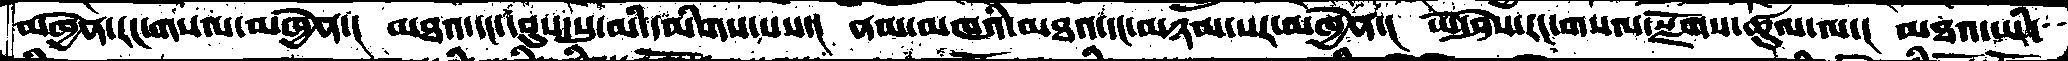མཁྱེན་རང་གསལ་མཁྱེན་།  མཐའ་དང་དབུས་སུ་མི་དམིགས་པས་།  ནམ་མཁའི་མཐའ་དང་མཉམ་པར་མཁྱེན་།  ཡེ་ཤེས་རང་གསལ་སྫོགས་ཚུལ་ལ་།  མཐའ་ཡི་
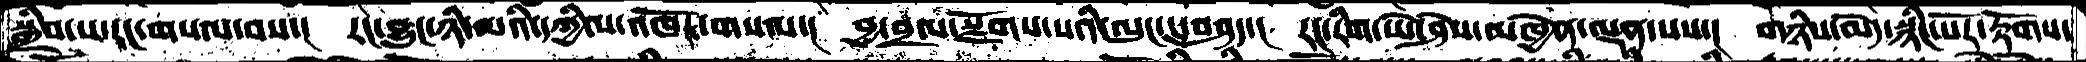སྒྲིབ་པ་རང་གསལ་བས་།  རང་བྱུང་ཉི་མའི་དཀྱིལ་འཁོར་གསལ་།  བྱ་བྲལ་སྫོགས་པའི་ལུང་དུ་བཤད་།  རང་རིག་ཡེ་ཤེས་མཁྱེན་ལྡན་པས་།  གཉིས་མེད་སྙིང་པར་རྟོགས་
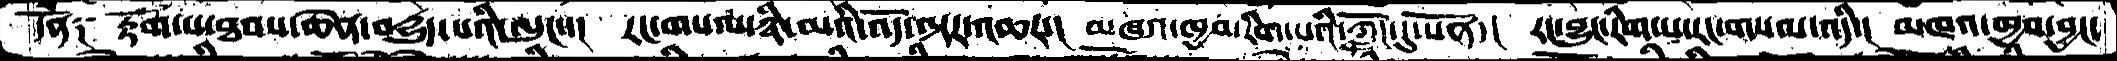དོན༑  རྟོག་པ་ཐབས་ཆེན་བདྱུད་པའི་ལུང་་།  རང་གསལ་ཉི་མའི་འོད་ལྟར་འཆར་།  མཁའ་ཁྱབ་རིག་པའི་ཀློང་དུ་སོན་།  རང་བྱུང་རིག་པ་རང་གསལ་འདི་།  མཁའ་ཁྱབ་བྱང་
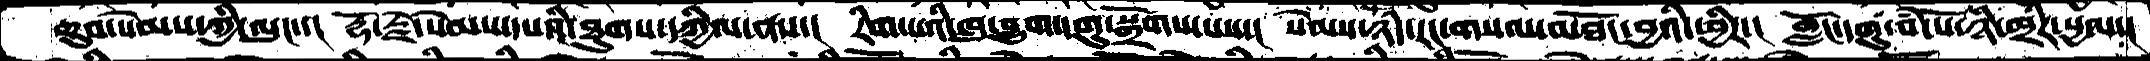ཆུབ་སེམས་ཀྱི་ལུང་་།  རྡོ་རྗེ་སེམས་དཔའི་ཐུགས་དཀྱིལ་ནས་།  རིག་པའི་ཁུ་བྱུག་དགུ་སྒྲོགས་པས་།  སེམས་ཉིད་རང་གསལ་མཐོང་བྱའི་ཕྱིར་།  གློང་དགུ་བཾ་སོ་ཉི་ཁྲིར་སྱལ་།
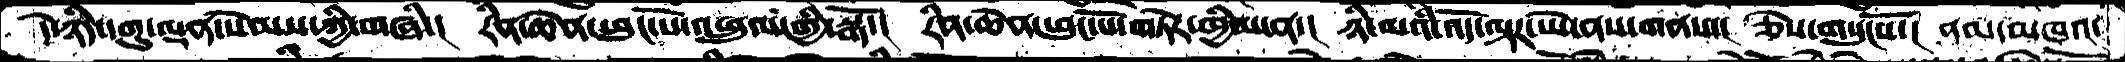དེ་ཉིད་དགུ་ལྡན་སེམས་ཀྱི་གཞི་།  རིན་ཆེན་ཕུང་པོ་འཕྲུལ་གྱི་སྒོ་།  རིན་ཆེན་ཕུང་པོ་གཏོར་ཁྱིམ་ན་།  ཉི་མའི་འོད་ལྟར་ཡེ་ནས་གནས་།  ཅེས་གསུངསོ་།  ནམ་མཁའ་
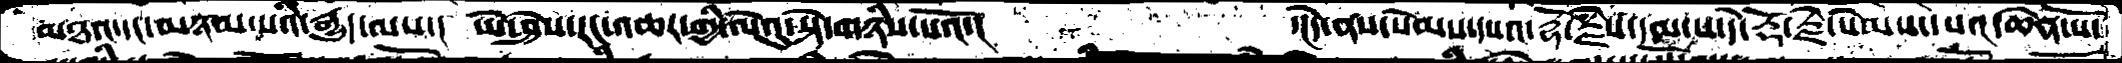མཐའ་དང་མཉམ་པའི་རྒྱུད་ལས་།  ཡེ་ཤེས་རང་འཆར་གྱི་ལེའུ་སྟེ་གཉིས་པའོ་།         ་།དེ་ནས་སེམས་དཔའ་རྡོ་རྗེས་དམ་པ་དེ་རྡོ་རྗེ་སེམས་དཔའ་ཆེན་པོ་
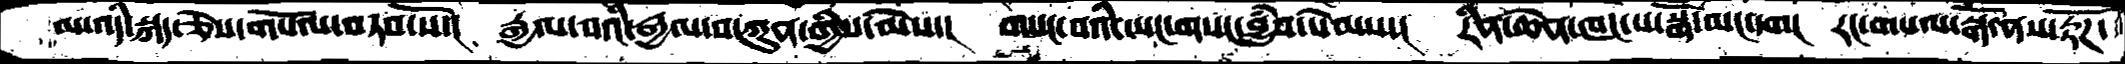མ་འདི་སྐད་ཅེས་གསོལ་བཏབ་སོ་།  རྒྱལ་བའི་རྒྱལ་བ་ཀུན་གྱིས་མེས་།  གསང་བའི་ཡང་གསང་བྱུཾབ་སེམས་།  རིན་ཆེན་ཁང་པ་སྒོ་མང་དག།  རང་གསལ་སྒོ་ནས་རྟོཌ་
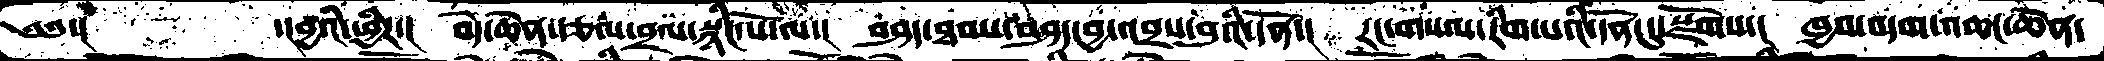༄༅་།        ་།བྱའི་ཕྱིར་།  བདེ་ཆེན་རྩལ་བྲལ་སྙིང་པོ་ལ་།  བཤད་ཐབས་བཤད་བྱ་འབྲས་བུའི་དོན་།  རངགསལ་རིག་པའི་དོན་དུ་སྫོགས་།  ཁྱབ་བདག་འཆང་ཆེན་
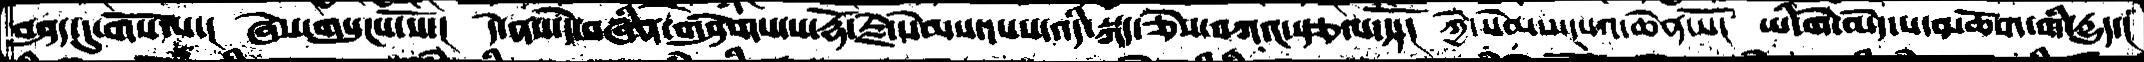བཤད་དུ་གསོལ་།  ཞེས་གསུངས་སོ་།  དེ་ནས་དེ་བཞིན་གཤེགས་པས་རྡོ་རྗེ་སེམས་དཔས་འདི་སྐད་ཅེས་བཀའ་སྩལ་ཏོ་།  ཀྱེ་སེམས་དཔའ་ཆེན་པོ།།  ཡི་གེ་མེད་པ་མཆོག་གི་དྱུད་
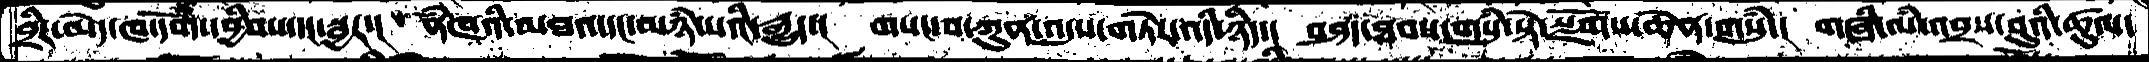བྲིར་མེད་ཁ་དོག་དབྱིབས་དང་སྦྱར་།  ནཾཁའི་མཐའ་དང་མཉཾ་པའི་རྒྱུད་།  གསང་བ་ཀུན་འདུས་གཏེར་འདི་ཉིད་།  བཤད་ཐབས་གསུཾ་སྟེ་སྫོགས་ཆེན་གསུཾ་།  གཞི་ལཾ་འབྲས་བུའི་ཚུལ་
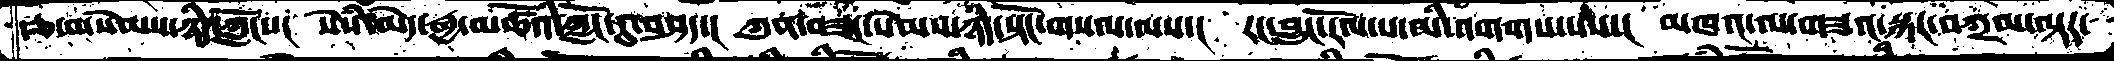རྩ་བ་སེམས་ཉདི་ཀློང་་།  སེསཾ་མེད་རྒྱ་མཚོའི་ཀློང་དུ་བཤད་།  ཀུན་བཟང་སེམས་ཉིད་སྟོང་གསལ་ལས་།  རང་བྱུང་རོལ་པ་མི་འགགས་པས་།  མཁའ་ལ་གཟའ་སྐར་བཀྲམ་ལྟར་
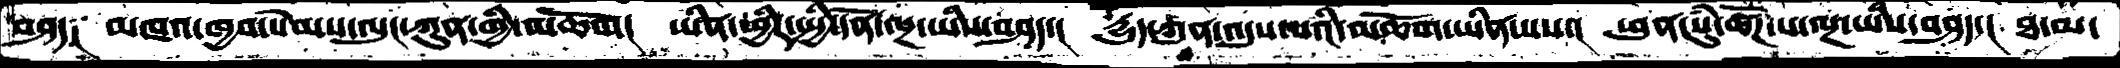བཤད༑  མཁའ་ཁྱབ་སེམས་ལུང་ཀུན་གྱི་མཆོག།  ཡིན་ཕྱིར་སྤྱི་དོན་ལྔ་ཡིས་བཤད་།  དྱུད་ཀུན་འདུས་པའི་མཆོག་ཡིན་པས་།  ཕུན་སུཾ་ཚོཌ་པ་ལྔ་ཡིས་བཤད་།  ཐ་མ་
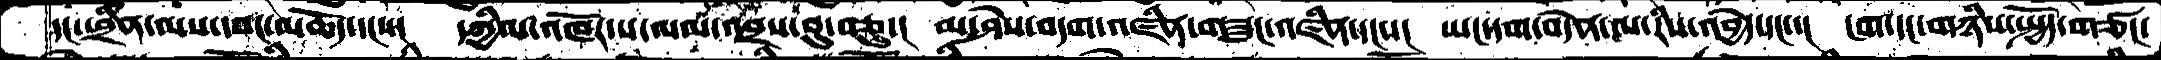དང་ཕྲིན་ལས་དབང་མཆོད་དང་་།  དཀྱིལ་འཁོར་ས་ལམ་འབྲས་བུ་བཅུ་།  མ་ཤེས་བདག་འཛིན་གཟུང་འཛིན་དང་་།  ཡང་དག་བདེན་ལ་རིས་འབྱེད་དང་་།  ངག་དང་གཉིས་སྤྱོད་གཙང་
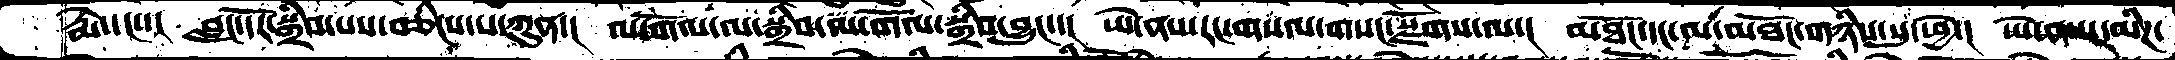རྨེ་དང་་།  བླང་དོར་སྒྲིབ་པས་བཅིངས་པ་ཀུན་།  མ་གོལ་ལ་སྒྲིབ་ལ་གོལ་སྒྲིབ་བྱུང་་།  ཡེ་ནས་རང་གསལ་གསང་སྫོགས་ལ་།  མཐོང་དང་མ་མཐོང་གཉིས་སུ་ཕྱེ་།  ཡེ་ནས་དམིཌ་
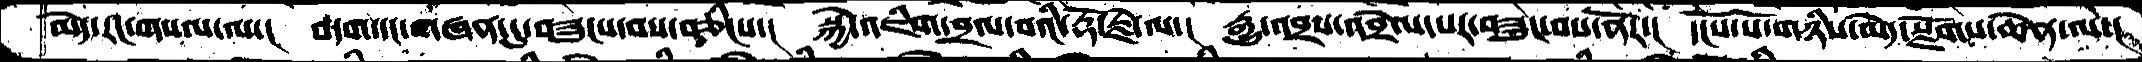མེད་རང་གསལ་ལ་།  བདག་དང་གཞན་དུ་བཟུངས་བས་བཅིངས་།  སྐྱེ་འཇིག་བྲལ་བའི་རྡོ་རྗེ་ལ་།  རྒྱུ་འབྲས་འབྲེལ་པར་བཟུང་བས་ནོར་།  དངོས་པོ་གཉིས་མེད་སྫོགས་ཆེན་ལ་།
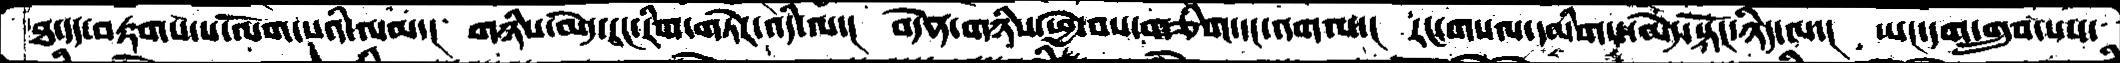ཐ་དད་བརྟགས་པ་ལོག་པའི་ལམ་།  གཉིས་མེད་རང་རིག་གཏེར་འདི་ལ་།  བདེན་གཉིས་ཕྱེ་བས་གཅིག་དང་འགལ་།  རང་གསལ་དམིགས་མེད་སྟོང་ཉིད་ལ་།  ཡང་དག་གྲུབ་པས་
